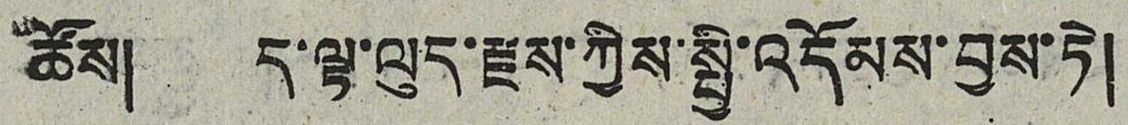ཚོས། ད་ལྟ་ལུད་རྫས་ཀྱིས་སྤྱི་འདོམས་བྱས་ཏེ།
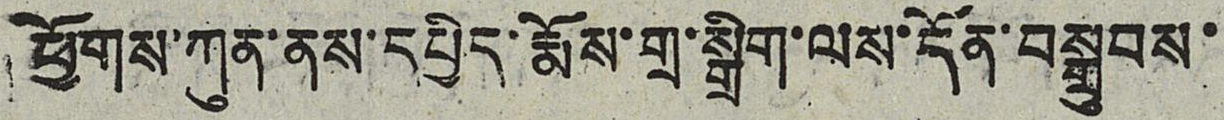ཕྱོགས་ཀུན་ནས་དཔྱིད་རྨོས་གྲ་སྒྲིག་ལས་དོན་བསྒྲུབས་
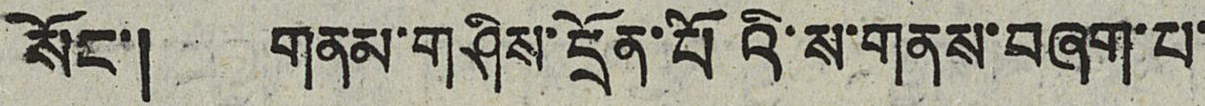སོང་། གནམ་གཤིས་དྲོན་པོའི་ས་གནས་བཞག་པ་
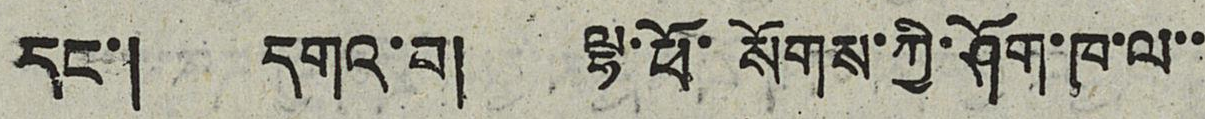དང་། དགའ་བ། ལྷ་ཕོ་སོགས་ཀྱི་ཤོག་ཁ་ལ་་
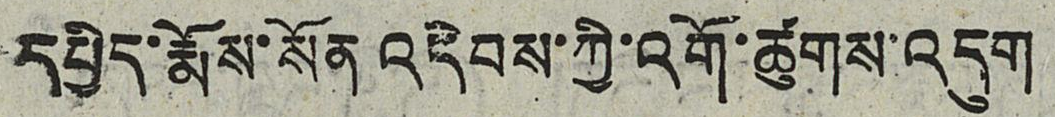དཔྱིད་རྨོས་སོན འདེབས་ཀྱི་འགོ་ཚུགས་འདུག
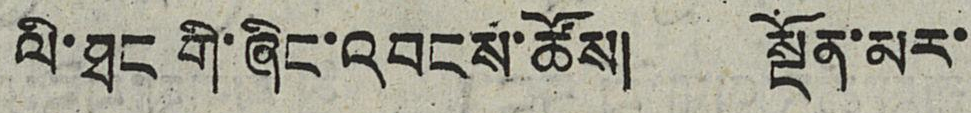ལི་ཐང གི་ཞིང་འབངས་ཚོས། སྔོན་མར་
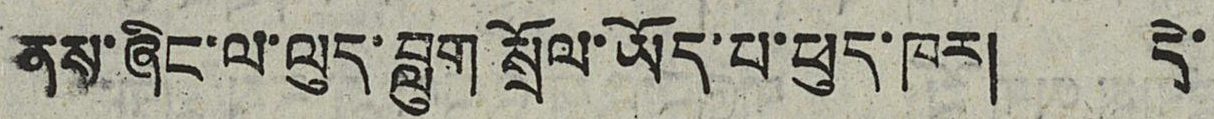ནས་ཞིང་ལ་ལུད་བླུག སྲོལ་ཡོད་པ་ཕུད་ཁར། དེ་
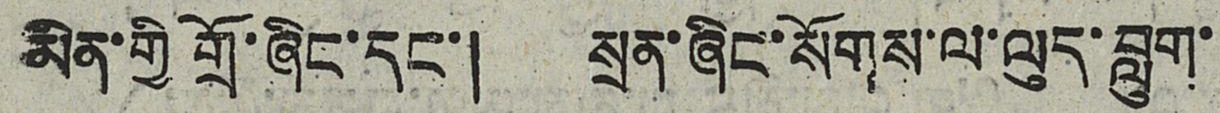མིན་གྱི གྲོ་ཞིང་དང་། སྲན་ཞིང་སོགས་ལ་ལུད་བླུག་
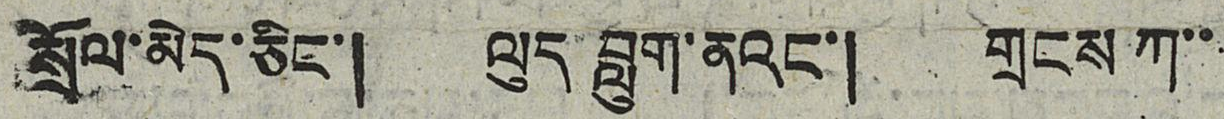སྲོལ་མེད་ཅིང་། ལུད་བླུག་ནའང་། གྲངས་ཀ་་
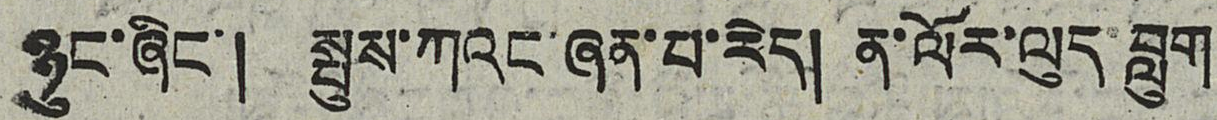ཉུང་ཞིང་། སྤུས་ཀའང་ཞན་པ་རེད། ན་ལོར་ལུད་བླུག
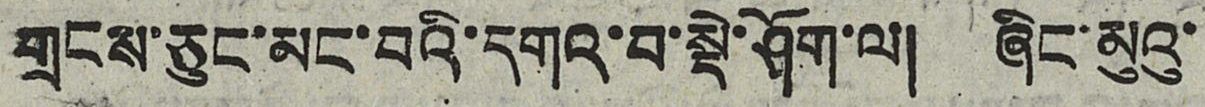གྲངས་ཅུང་མང་བའི་དགའ་བ་སྡེ་ཤོག་ལ། ཞིང་མུའུ་
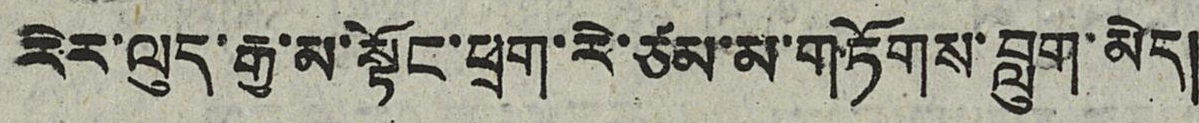རིར་ལུད་རྒྱ་མ་སྟོང་ཕྲག་རེ་ཙམ་མ་གཏོགས་བླུག་མེད།
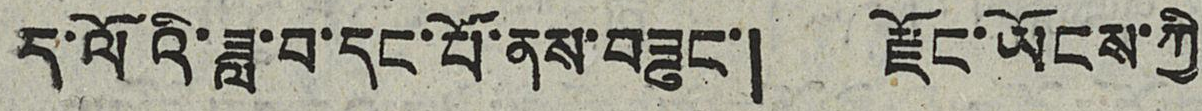ད་ལོའི་ཟླ་བ་དང་པོ་ནས་བཟུང་། རྫོང་ཡོངས་ཀྱི
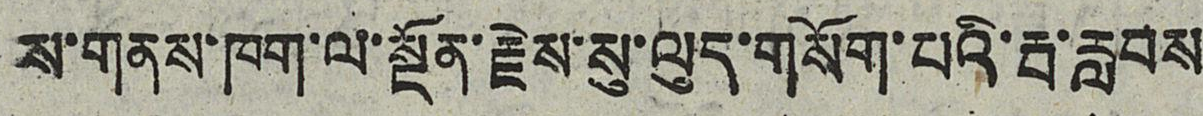ས་གནས་ཁག་ལ་སྔོན་རྗེས་སུ་ལུད་གསོག་པའི་རྦ་རླབས
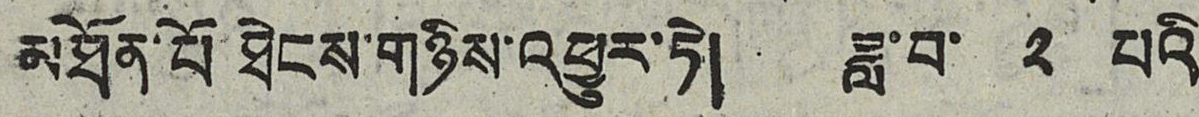མཐོན་པོ་ཐེངས་གཉིས་འཕྱུར་ཏེ། ཟླ་བ་ ༢ པའི
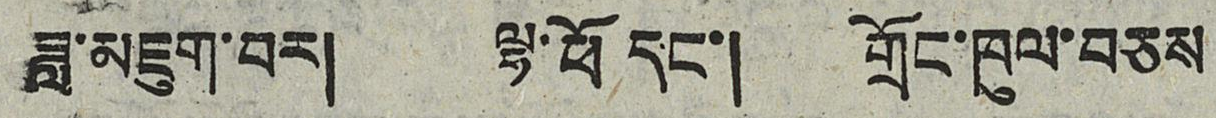ཟླ་མཇུག་བར། ལྷ་ཕོ དང་། གྲོང་ཁུལ་བཅས
